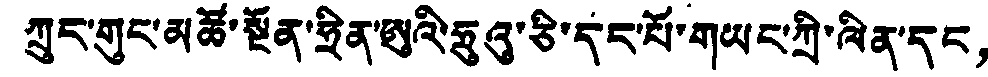ཀྲུང་གུང་མཚོ་སྔོན་ཧྲིན་ཨུའི་ཧྲུའུ་ཅི་དང་པོ་གཡང་ཀྲི་ལིན་དང，
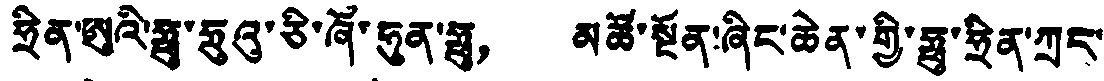ཧྲིན་ཨུའི་ཧྥུ་ཧྲུའུ་ཅི་ཞོ་ཧུན་ཧྥུ， མཚོ་སྔོན་ཞིང་ཆེན་གྱི་ཧྥུ་ཧྲིན་ཀྲང་
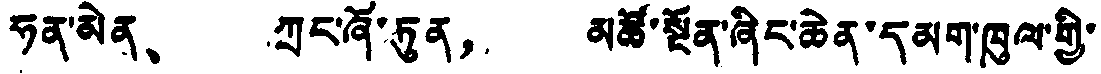ཧན་མེན、 ཀྲང་ཞོ་ཏུན， མཚོ་སྔོན་ཞིང་ཆེན་དམག་ཁུལ་གྱི་
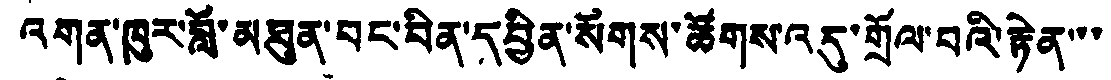འགན་ཁུར་བློ་མཐུན་བང་བིན་དབྱིན་སོགས་ཚོགས་འདུ་གྲོལ་བའི་རྟེན་་་
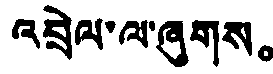འབྲེལ་ལ་ཞུགས。
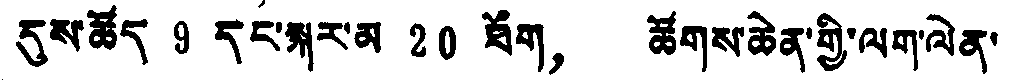དུས་ཚོད 9 དང་སྐར་མ 20 ཐོག， ཚོགས་ཆེན་གྱི་ལག་ལེན་
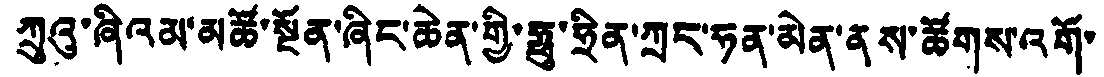ཀྲུའུ་ཞིའམ་མཚོ་སྔོན་ཞིང་ཆེན་གྱི་ཧྥུ་ཧྲིན་ཀྲང་ཧན་མེན་ནས་ཚོགས་འགོ་
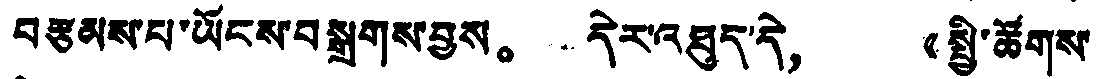བརྩམས་པ་ཡོངས་བསྒྲགས་བྱས。 དེར་འཐུད་དེ， 《སྤྱི་ཚོགས་
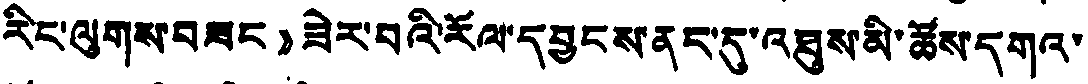རིང་ལུགས་བཟང》ཟེར་བའི་རོལ་དབྱངས་ནང་དུ་འཐུས་མི་ཚོས་དགའ་
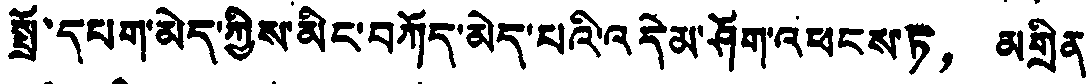སྤྲོ་དཔག་མེད་ཀྱིས་མིང་བཀོད་མེད་པའི་འདེམ་ཤོག་འཕངས་ཏ， མགྲིན་
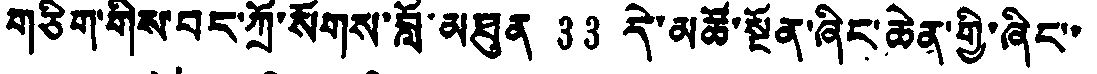གཅིག་གིས་བང་ཀྲོ་སོགས་བློ་མཐུན 33 དེ་མཚོ་སྔོན་ཞིང་ཆེན་གྱི་ཞིང་་
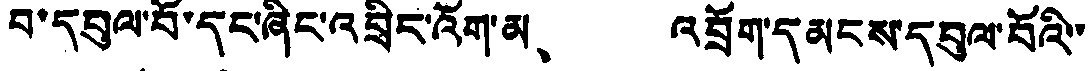བ་དབུལ་བོ་དང་ཞིང་འབྲིང་འོག་མ、 འབྲོག་དམངས་དབུལ་བོའི་་
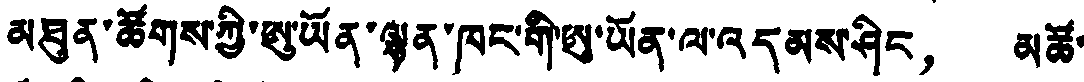མཐུན་ཚོགས་ཀྱི་ཨུ་ཡོན་ལྷན་ཁང་གི་ཨུ་ཡོན་ལ་འདམས་ཤིང， མཚོ་
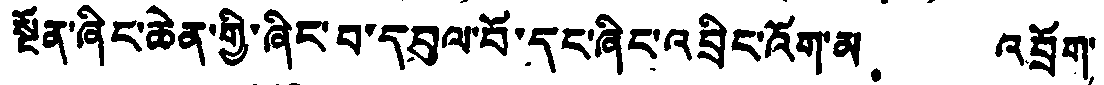སྔོན་ཞིང་ཆེན་གྱི་ཞིང་བ་དབུལ་བོ་དང་ཞིང་འབྲིང་འོག་མ、 འབྲོག་
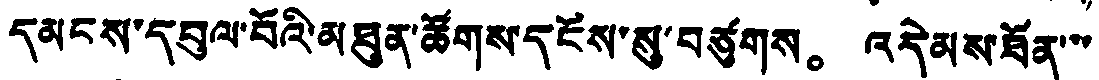དམངས་དབུལ་བོའི་མཐུན་ཚོགས་དངོས་སུ་བཙུགས。 འདེམས་ཐོན་་་
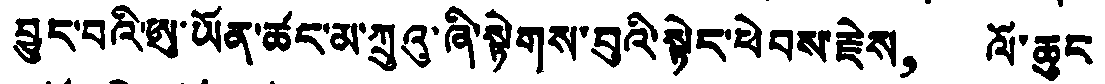བྱུང་བའི་ཨུ་ཡོན་ཚང་མ་ཀྲུའུ་ཞི་སྟེགས་བུའི་སྟེང་ཕེབས་རྗེས， ལོ་ཆུང་
